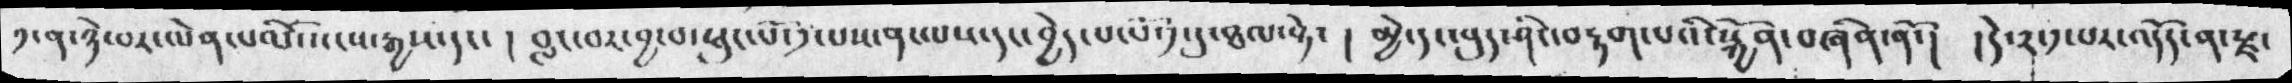༡་ན་ཉེ་བར་ལེན་པ་པོ་སངས་རྒྱས་དང་། བླང་བར་བྱ་བ་ཕུང་པོ་༡་པས་ན་ལས་དང་བྱེད་པ་པོ་༡་དུ་ཐལ་སྟེ་། མྱེ་དང་བུད་ཤིང་བརྟག་པའི་སྐྱོན་བཞིན་ནོ་། །དེ་༢་༡་པར་འདོད་ན་རྫ་
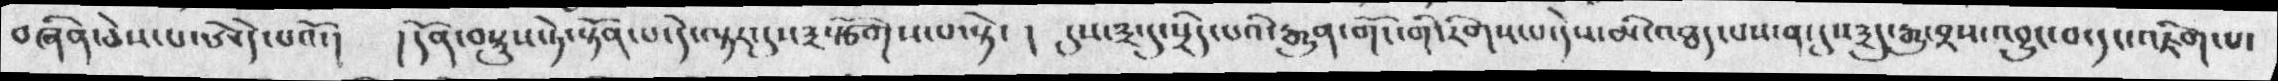བཞིན་ཅེས་པ་ཨེདེ་པའོ་། །དོན་བསྡུས་ཏེ་སྟོན་པ་དེ་ལྟར་དུས་༣སྩོགས་པ་སྟེ་། དུས་༣་དུ་སྲིད་པའི་རྒྱུན་གོང་གི་རིགས་པ་དེས་མི་འཐད་པས་ན་དུས༣དུ་རྒྱུ་འབྲས་འབྱུང་བ་དང་འཇིག་པ་
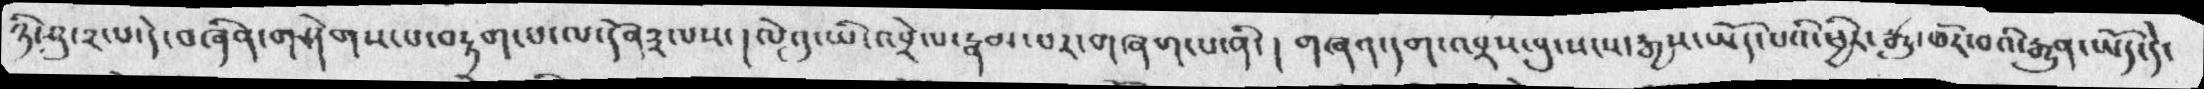ཉི་ཤུ་༢་པ་དེ་བཞིན་གཤེགས་པ་བརྟག་པ་ལ་དོན༣ལས་། ལེའུ་ཡི་འབྲེལ་རྣམ་པར་གཞགས་པ་ནི་། གཞན་དག་འབྲས་བུ་སངས་རྒྱས་ཡོད་པའི་ཕྱིར་རྒྱུ་ཚོར་བའི་རྒྱུན་ཡོད་དེ་
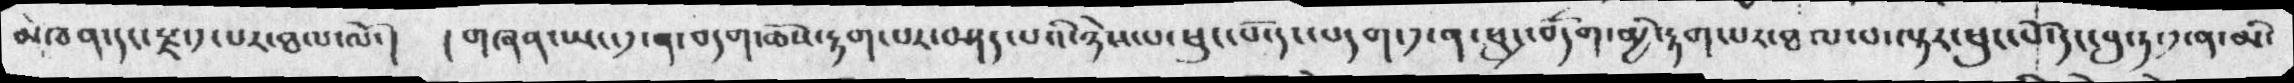མཁན་དང་རྫ་༡་པར་ཐལ་ལོ་།  །གཞན་ཡང་༡་ན་བདག་ཆོས་རྟག་པར་བཤད་པའི་ཉེས་པ་ཕུང་པོ་དང་བདག་༡་ན་ཕུད་བདག་མྱི་རྟག་པར་ཐལ་བ་ལྟར་ཕུང་པོ་དང་བུ་ཏ་༡་ན་མི་
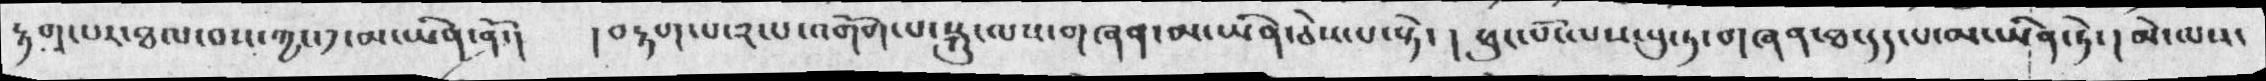རྟག་པར་ཐལ་བས་ཀྱང་༡་མ་ཡིན་ནོ་།  །བརྟག་པ་༢་པ་འགོག་པ་སྐུ་ལས་གཞན་མ་ཡིན་ཅེས་པ་སྟེ་། ཕུང་པོ་ལས་བུ་ཏ་གཞན་ཐ་དད་པ་མ་ཡིན་ཏེ་། མེ་ལས་
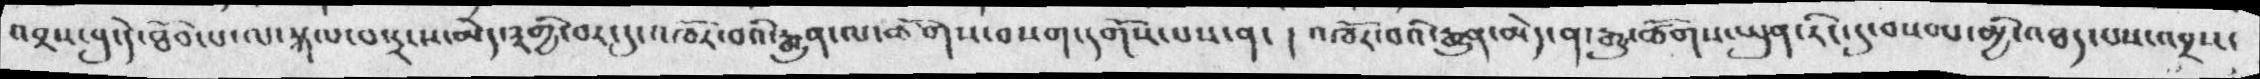འབྲས་བུ་དེ་ཐོབ་པ་ལ་སྐལ་བ་དྲངས་མེད་༣གྱི་བར་དུ་འཁོར་བའི་རྒྱུན་ལ་ཚོགས་བསག་དགོས་པས་ན་། འཁོར་བའི་རྒྱུན་མེད་ན་རྒྱུ་ཚོགས་ཡུན་རིང་དུ་བསམ་མྱི་འཐད་པས་འབྲས་
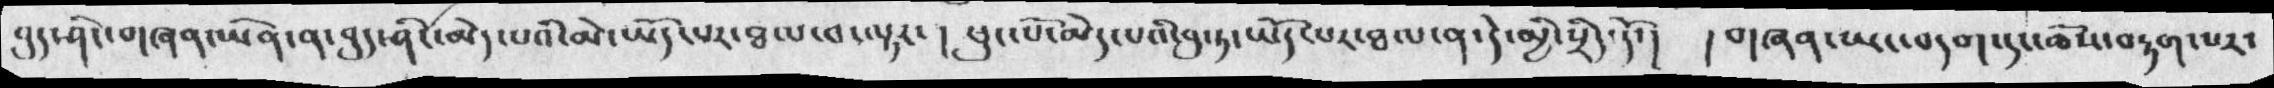བུད་ཤིང་གཞན་ཡིན་ན་བུད་ཤིང་མེད་པའི་མེ་ཡོད་པར་ཐལ་བ་ལྟར་། ཕུང་པོ་མེད་པའི་བུ་ཏ་ཡོད་པར་ཐལ་ན་དེ་མྱི་སྲིད་དོ་།  །གཞན་ཡང་བདག་དང་ཆོས་བརྟག་པར་
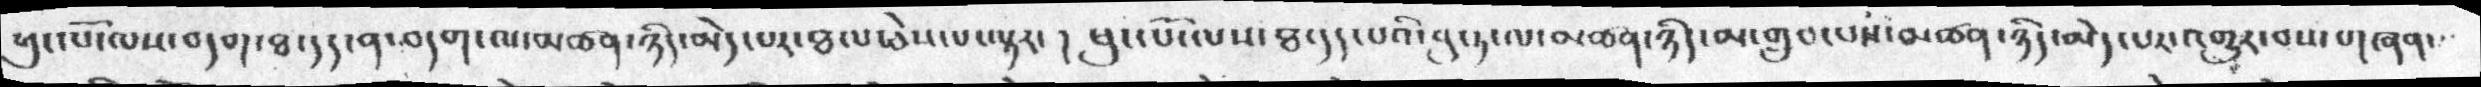ཕུང་པོ་ལས་བདག་ཐ་དད་ན་བདག་ལ་མཚན་ཉིད་མེད་པར་ཐལ་ཅེས་པ་ལྟར་།  ཕུང་པོ་ལས་ཐ་དད་པའི་བུ་ཏ་ལ་མཚན་ཉིད་མ་གྲུབ་པས་མཚན་ཉིད་མེད་པར་འགྱུར་བས་གཞན་
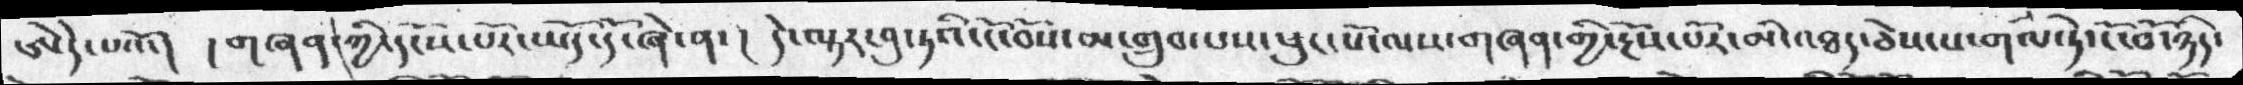ཨེདེ་པའོ་།  །གཞན་ཀྱི་དངོས་པོར་ཡོད་དོ་ཞེ་ན་།  དེ་ལྟར་བུ་ཏའི་ངོ་བོས་མ་གྲུབ་པས་ཕུང་པོ་ལས་གཞན་གྱི་རྔོས་པོར་མི་འཐད་ཅེས་པ་གལ་ཏེ་ངོ་བོ་ཉིད་
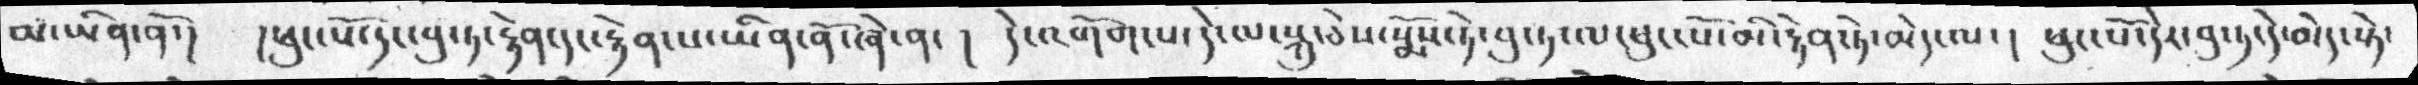མ་ཡིན་ནོ་།  །ཕུང་པོ་དང་བུ་ཏ་རྟེན་དང་རྟེན་པ་ཡིན་ནོ་ཞེ་ན་།  དེ་འགོག་པ་དེ་ལ་སྐུ་ཅེས་སྨོས་ཏེ་བུ་ཏ་ལ་ཕུང་པོ་མི་རྟེན་ཏེ་མེད་ལ་།  ཕུང་པོ་དེར་བུ་ཏ་དེ་མེད་སྟེ་
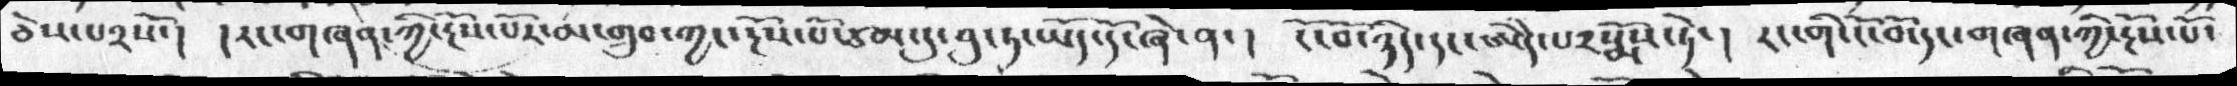ཅེས་པ༢སོ་།  །རང་གཞན་ཀྱི་རྔོས་པོར་མ་གྲུབ་ཀྱང་རྔོས་པོ་ཙམ་དུ་བུ་ཏ་ཡོད་དོ་ཞེ་ན་།  ངོ་བོ་ཉིད་དང་ཨེདེ་པ༢སྨོས་ཏེ་།  རང་གི་ངོ་བོ་དང་གཞན་ཀྱི་རྔོས་པོ་
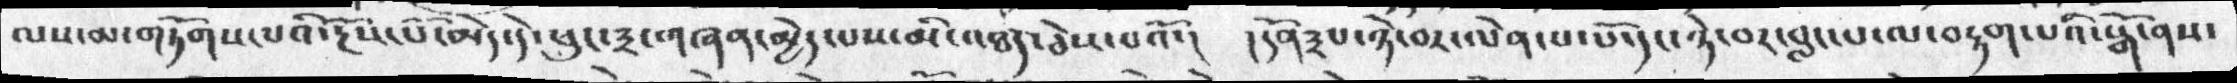ལས་མ་གཏོགས་པའི་རྔོས་པོ་མེད་དེ་ཕུང་༣་གཞན་མྱེད་པས་མི་འཐད་ཅེས་པའོ་།  །དོན༣པ་ཉེ་བར་ལེན་པ་པོ་དང་ཉེ་བར་བླང་པ་ལ་བརྟག་པའི་སྒོ་ནས་
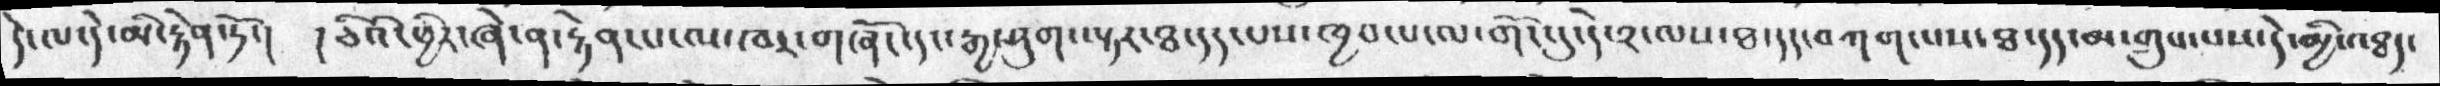དེ་ལ་དེ་མི་རྟེན་ཏོ་།  །ཅིའི་ཕྱིར་ཞེ་ན་རྟེན་པ་ལ་ཁར་གཞོང་དང་རྒྱ་ཤུག་ལྟར་ཐ་དད་པས་ཁྱབ་པ་ལ་གོང་དུ་དེ་༢་ལས་ཐ་དད་བཀག་པས་ཐ་དད་མ་གྲུབ་པས་དེ་མྱི་འཐད་
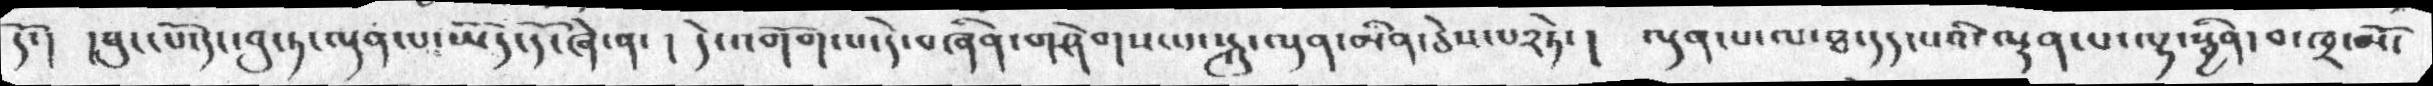དོ་།  །ཕུང་པོ་དང་བུ་ཏ་ལྡན་པ་ཡོད་དོ་ཞེ་ན་།  དེ་འགོག་པ་དེ་བཞིན་གཤེགས་པ་སྐུ་ལྡན་མིན་ཅེས་པ༢ཏེ་།  ལྡན་པ་ལ་ཐ་དད་པའི་ལྡན་པ་ལྷ་སྦྱིན་བ་ཁྲ་མོ་
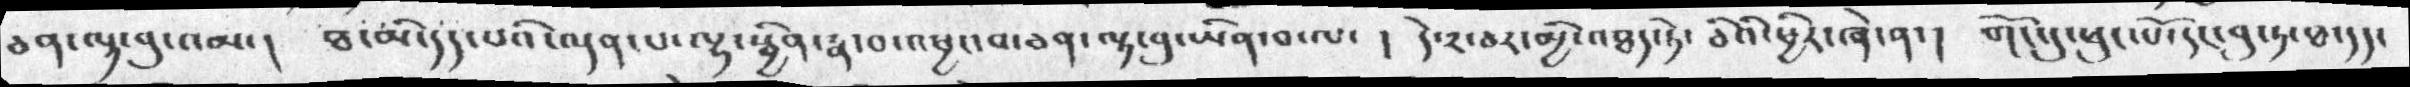ཅན་ལྟ་བུ་འམ་།  ཐ་མི་དད་པའི་ལྡན་པ་ལྷ་སྦྱིན་རྣ་བ་འཕྱང་བ་ཅན་ལྟ་བུ་ཡིན་བ་ལ་།  དེ་༢་ཅར་མྱི་འཐད་ཏེ་ཅིའི་ཕྱིར་ཞེ་ན་། གོང་དུ་ཕུང་པོ་དང་བུ་ཏ་ཐ་དད་
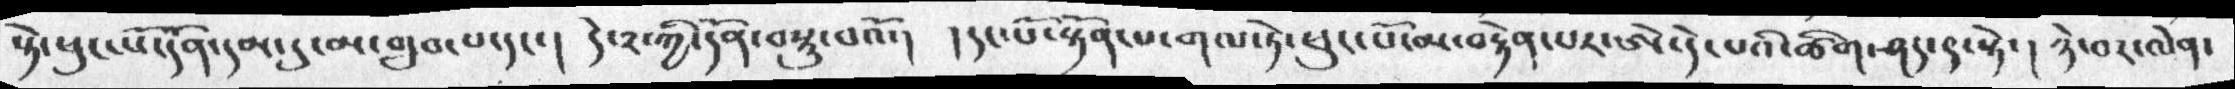སྟེ་ཕུང་པོ་དོན་དམ་དུ་མ་གྲུབ་པ་དང་། དེ་༢་ཀྱི་དོན་བསྡུ་བའོ་། །དང་པོ་སྟོན་པ་གལ་ཏེ་ཕུང་པོ་མ་བརྟེན་པར་ཨེད་དེ་པའི་ཚིག་ཤད་༩་སྟེ་། ཉེ་བར་ལེན་
